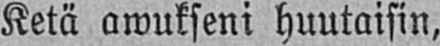Ketä awukseni huutaisin,
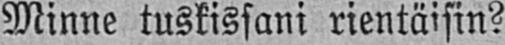Minne tuskissani rientäisin?
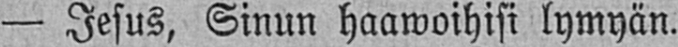— Jesus, Sinun haawoihisi lymyän.
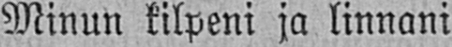Minun kilpeni ja linnani
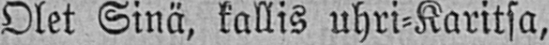Olet Sinä, kallis uhri-Karitsa,
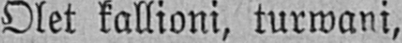Olet kallioni, turwani,
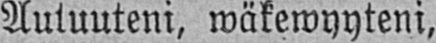Autuuteni, wäkewyyteni,
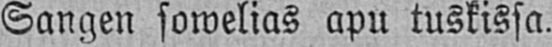Sangen sowelias apu tuskissa.
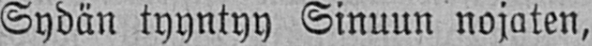Sydän tyyntyy Sinuun nojaten,
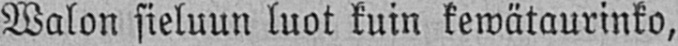Walon sieluun luot kuin kewätaurinko,
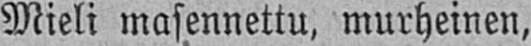Mieli masennettu, murheinen,
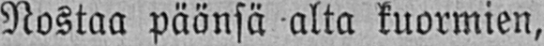Nostaa päänsä alta kuormien,
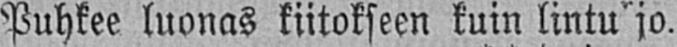Puhkee luonas kiitokseen kuin lintu jo.
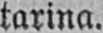tarina.
